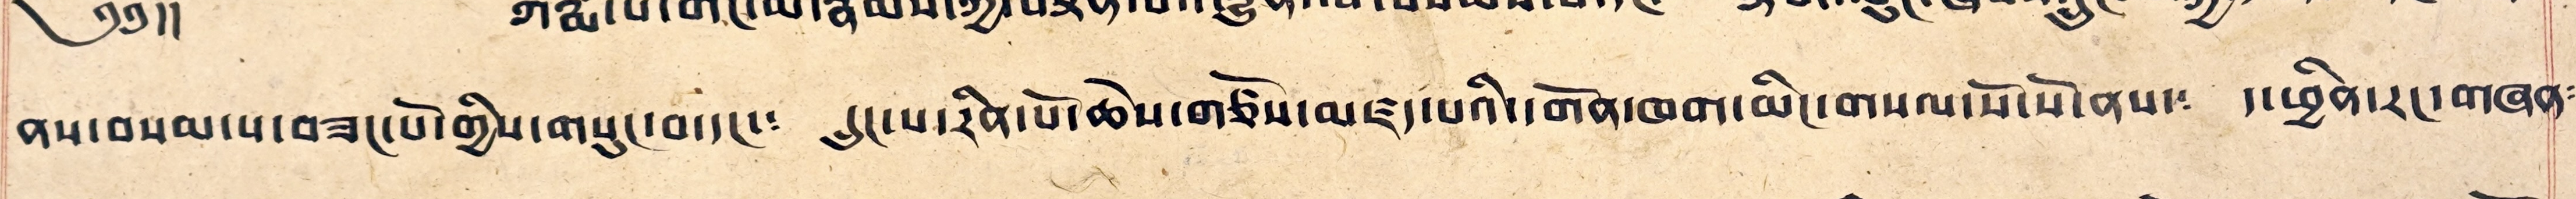ནས་བསམ་པ་བཟང་པོ་གྱིས་གསུང་བ་དང་༴ དྲུང་པ་རིན་པོ་ཆེས་གཙོས་མཛད་པའི་དགོན་ཁག་མིང་གསལ་པོ་སོ་སོ་ནས་༴ ད་ཕྱིན་རང་གཞན༴
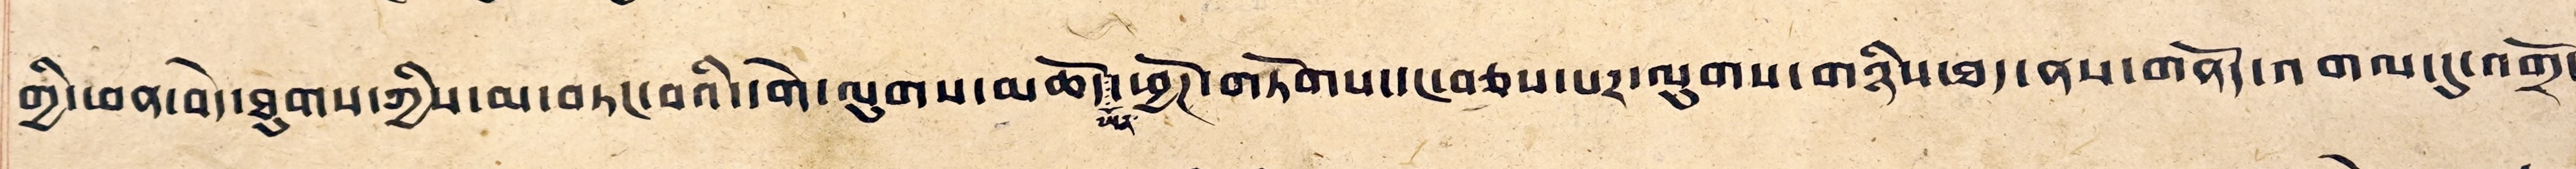གྱི་ཕན་བདེ་ཐུགས་ཀྱིས་མ་བཏང་བའི་དགེ་ལུགས་མཆོད་ཡོན་ཕྱོཊ་གཏོགས་དང་བཅས་པར་ལུགས་གཉིས་ཐད་ནས་གནོད་འགལ་དུ་འགྲོ་
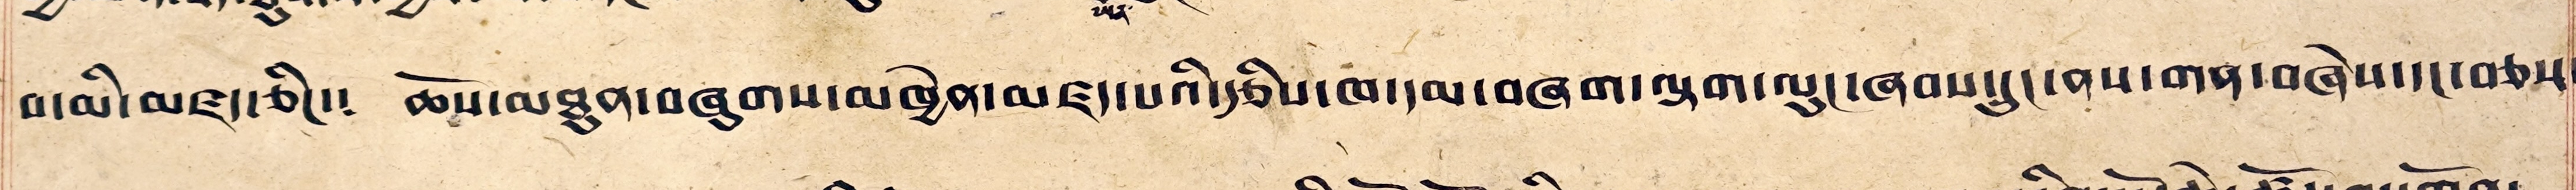བ་མི་མཛད་ཅིང་༴ ཆོས་མཐུན་བཞུགས་མཁྱེན་མཛད་པའི་རྩིས་ཁ་དམ་བཞག་སྟག་ལུང་ཞབས་དྲུང་ནས་གན་བཞེས་དང་བཅས་
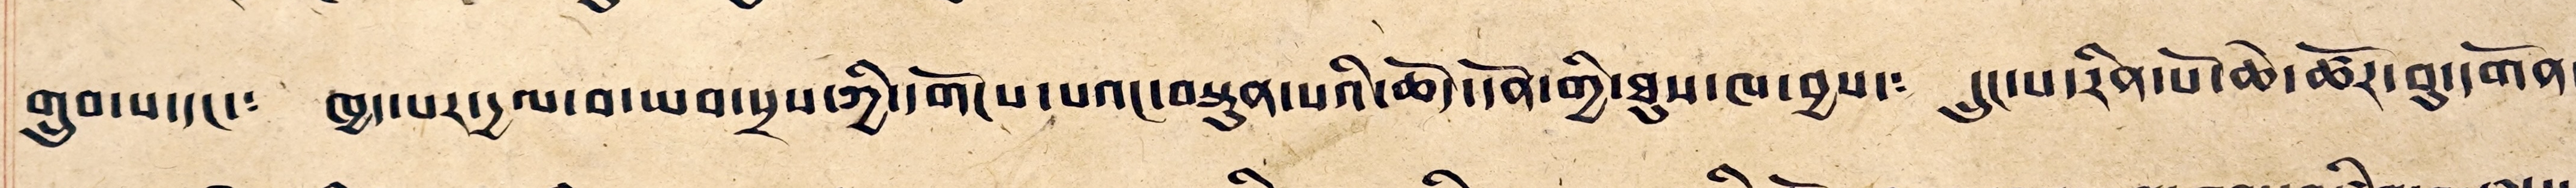གྲུབ་པ་དང་༴ ཁྱད་པར་དྱལ་བ་ཡབ་སྲས་ཀྱི་དགོངས་པའང་བསྟུན་པའི་ཆོད་དོན་གྱི་ཐུས་ཁ་བྱས་༴ དྲུང་པ་རིན་པོ་ཆེ་ཚོར་བུ་དགོན་
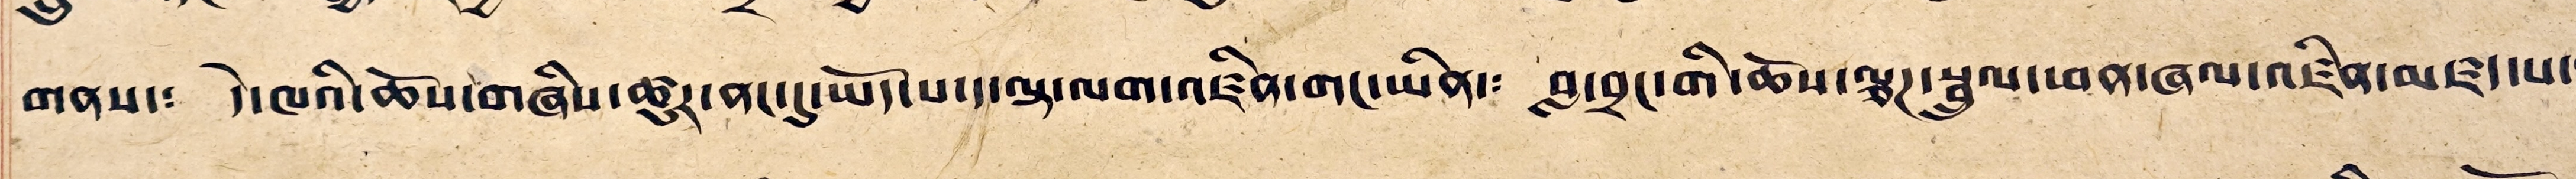གནས་༴ དེ་ཁའི་ཆོས་གཞིས་ཚུར་ནང་དུ་ཡོད་པ་ད་ལྟ་ལག་འཛིན་གང་ཡིན་༴ བླ་བྲང་གི་ཆོས་ལྕཊ་སྦྲུལ་ཕན་ཞལ་འཛིན་མཛད་པ་༴
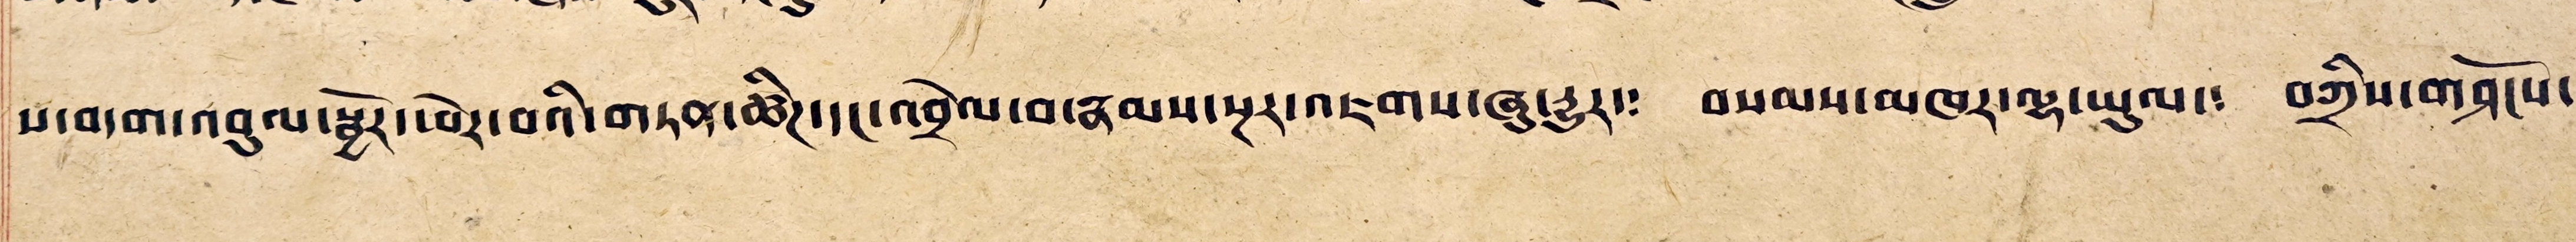ས་བདག་འབུལ་སྦྱོར་ཕོར་བའི་གཏན་ཚིཊ་དང་འབྲེལ་བ་རྣམས་སྔར་འཇགས་ཞུ་རྒྱུར་༴ བསམས་མཁར་ལྷ་ཡུལ་༴ བཀྲིས་གཤོངས་
